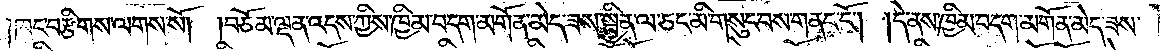ཁང་བརྩིགས་ལགས་སོ། །བཅོམ་ལྡན་འདས་ཀྱིས་ཁྱིམ་བདག་མགོན་མེད་ཟས་སྦྱིན་ལ་ཅང་མི་གསུང་བས་གནང་ངོ༌། །དེ་ནས་ཁྱིམ་བདག་མགོན་མེད་ཟས་
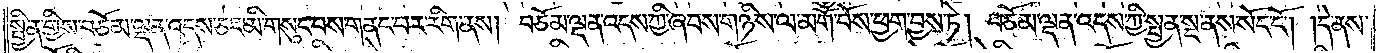སྦྱིན་གྱིས་བཅོམ་ལྡན་འདས་ཅང་མི་གསུང་བས་གནང་བར་རིག་ནས། བཅོམ་ལྡན་འདས་ཀྱིས་ཞབས་གཉིས་ཀྱི་ལ་མགོ་བོས་ཕྱག་བྱས་ཏེ། བཅོམ་ལྡན་འདས་ཀྱིས་སྤྱན་སྔ་ནས་སོང་ངོ༌། །དེ་ནས་
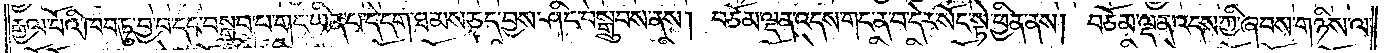རྒྱལ་པོའི་ཁབ་ཏུ་བྱ་བ་དང་བསྒྲུབ་པ་གང་ཡིན་པ་དེ་དག་ཐམས་ཅད་བྱས་ཤིང་བསྒྲུབས་ནས། བཅོམ་ལྡན་འདས་གང་ན་བ་དེར་སོང་སྟེ་ཕྱིན་ནས། བཅོམ་ལྡན་འདས་ཀྱི་ཞབས་གཉིས་ལ་
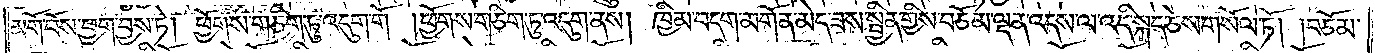མགོ་བོས་ཕྱག་བྱས་ཏེ། ཕྱོགས་གཅིག་ཏུ་འདུག་གོ །ཕྱོགས་གཅིག་ཏུ་འདུག་ནས། ཁྱིམ་བདག་མགོན་མེད་ཟས་སྦྱིན་གྱིས་བཅོམ་ལྡན་འདས་ལ་འདི་སྐད་ཅེས་གསོལ་ཏོ། །བཅོམ་
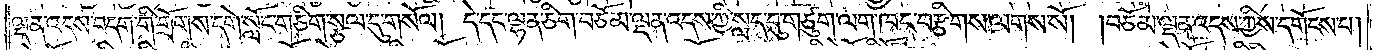ལྡན་འདས་བདག་གི་གྲོགས་དགེ་སློང་གཅིག་སྩལ་དུ་གསོལ། དེ་དང་ལྷན་ཅིག་བཅོམ་ལྡན་འདས་ཀྱི་སླད་དུ་གཙུག་ལག་ཁང་བརྩིགས་ལགས་སོ། །བཅོམ་ལྡན་འདས་ཀྱིས་དགོངས་པ།
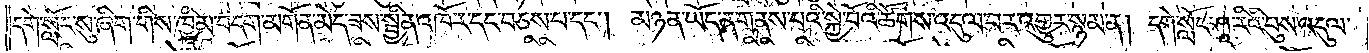དགེ་སློང་སུ་ཞིག་གིས་ཁྱིམ་བདག་མགོན་མེད་ཟས་སྦྱིན་འཁོར་དང་བཅས་པ་དང༌། མཉན་ཡོད་ན་གནས་པའི་སྐྱེ་བོའི་ཚོགས་འདུལ་བར་འགྱུར་སྙམ་ན། དགེ་སློང་ཤཱ་རིའི་བུས་འདུལ་
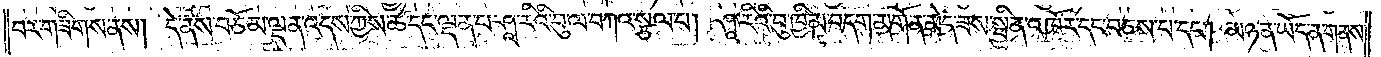བར་གཟིགས་ནས། དེ་ནས་བཅོམ་ལྡན་འདས་ཀྱིས་ཚེ་དང་ལྡན་པ་ཤཱ་རིའི་བུ་ལ་བཀའ་སྩལ་པ། ཤཱ་རིའི་བུ་ཁྱིམ་བདག་མགོན་མེད་ཟས་སྦྱིན་འཁོར་དང་བཅས་པ་དང༌། མཉན་ཡོད་ན་གནས་
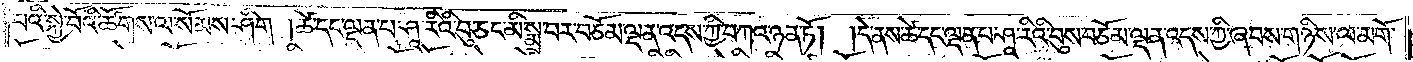པའི་སྐྱེ་བོའི་ཚོགས་ལ་སོམས་ཤིག །ཚེ་དང་ལྡན་པ་ཤཱ་རིའི་བུ་ཅང་མི་སྨྲ་བར་བཅོམ་ལྡན་འདས་ཀྱི་བཀའ་ཉན་ཏོ།  །དེ་ནས་ཚེ་དང་ལྡན་པ་ཤཱ་རིའི་བུས་བཅོམ་ལྡན་འདས་ཀྱི་ཞབས་གཉིས་ལ་མགོ་
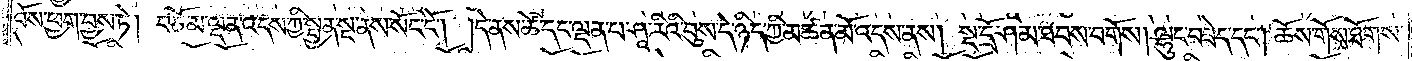བོས་ཕྱག་བྱས་ཏེ། བཅོམ་ལྡན་འདས་ཀྱི་སྤྱན་སྔ་ནས་སོང་ངོ༌། །དེ་ནས་ཚེ་དང་ལྡན་པ་ཤཱ་རིའི་བུས་དེ་ཉིད་ཀྱི་མཚན་མོ་འདས་ནས། སྔ་དྲོ་ཤམ་ཐབས་བགོས། ལྷུང་བཟེད་དང༌། ཆོས་གོས་ཐོགས་
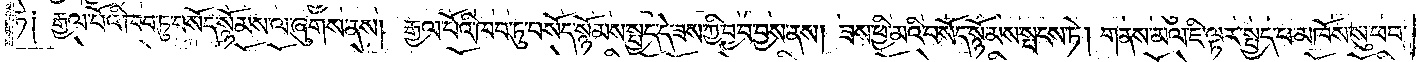ཏེ། རྒྱལ་པོའི་ཁབ་ཏུ་བསོད་སྙོམས་ལ་ཞུགས་ནས། རྒྱལ་པོའི་ཁབ་ཏུ་བསོད་སྙོམས་སྤྱད་དེ་ཟས་ཀྱི་བྱ་བས་བྱས་ནས། ཟས་ཕྱི་མའི་བསོད་སྙོམས་སྤངས་ཏེ། གནས་མལ་ཇི་ལྟར་སྤྱད་པ་མཁོས་སུ་ཕབ་
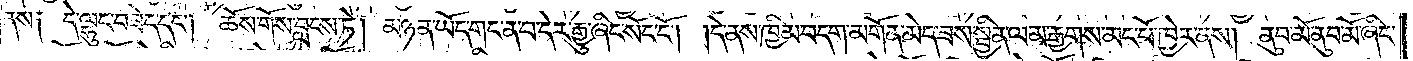ནས། དེ་ལྷུང་བཟེད་དང༌། ཆོས་གོས་བླངས་ཏེ། མཉན་ཡོད་གང་ན་བ་དེར་རྒྱུ་ཞིང་སོང་ངོ༌། །དེ་ནས་ཁྱིམ་བདག་མགོན་མེད་ཟས་སྦྱིན་ལམ་རྒྱགས་མང་པོ་ཁྱེར་ནས། ནུབ་མོ་ནུབ་མོ་ཞིང་
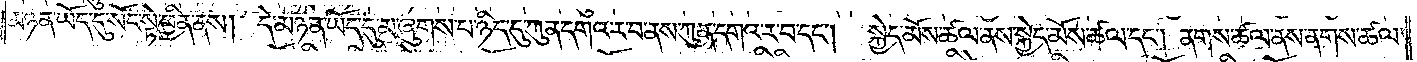མཉན་ཡོད་དུ་སོང་སྟེ་ཕྱིན་ནས། དེ་མཉན་ཡོད་དུ་མ་ཞུགས་པ་ཉིད་དུ་ཀུན་དགའ་ར་བ་ནས་ཀུན་དགའ་ར་བ་དང༌། སྐྱེད་མོས་ཚལ་ནས་སྐྱེད་མོས་ཚལ་དང༌། ནགས་ཚལ་ནས་ནགས་ཚལ་
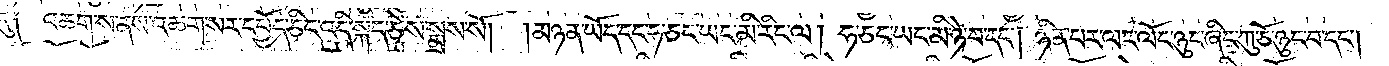དུ། འཆགས་ནས་འཆག་སར་དཔྱོད་ཅིང་འདི་སྐད་ཅེས་སྨྲས་སོ། །མཉན་ཡོད་དང་ཧ་ཅང་ཡང་མི་རིང་ལ། ཧ་ཅང་ཡང་མི་ཉེ་བ་དང༌། ཉིན་པར་ལང་ལོང་ཉུང་ཞིང་ཀུ་ཅོ་ཉུང་བ་དང༌།
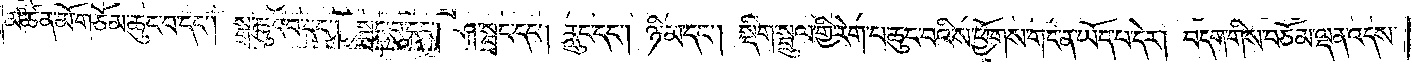མཚན་མོ་གཅོམ་ཆུང་བ་དང༌། སྒྲ་ཆུང་བ་དང༌། སྦྲང་བུ་དང༌། ཤ་སྦྲང་དང༌། རླུང་དང༌། ཉི་མ་དང༌། སྡིག་སྤྲུལ་གྱི་རེག་པ་ཆུང་བའི་ས་ཕྱོགས་གང་ན་ཡོད་པ་དེར། བདག་གིས་བཅོམ་ལྡན་འདས་
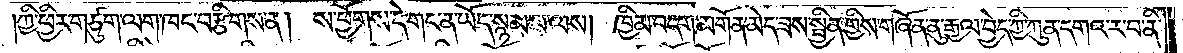ཀྱི་ཕྱིར་གཙུག་ལག་ཁང་བརྩིགས་ན། ས་ཕྱོགས་དེ་གང་ན་ཡོད་སྙམ་པ་ལས། ཁྱིམ་བདག་མགོན་མེད་ཟས་སྦྱིན་གྱིས་གཞོན་ནུ་རྒྱལ་བྱེད་ཀྱི་ཀུན་དགའ་ར་བ་ནི་
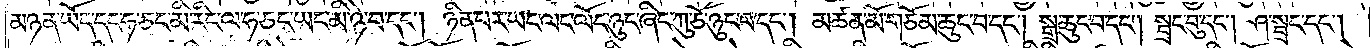མཉན་ཡོད་དང་ཧ་ཅང་མི་རིང་ལ་ཧ་ཅང་ཡང་མི་ཉེ་བ་དང༌། ཉིན་པར་ཡང་ལང་ལོང་ཉུང་ཞིང་ཀུ་ཅོ་ཉུང་བ་དང༌། མཚན་མོ་གཅོམ་ཆུང་བ་དང༌། སྒྲ་ཆུང་བ་དང༌། སྦྲང་བུ་དང༌། ཤ་སྦྲང་དང༌།
